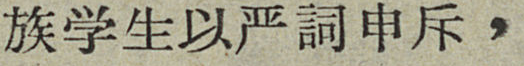族学生以严詞申斥，
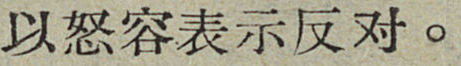以怒容表示反对。
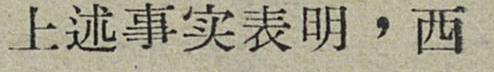上述事实表明，西
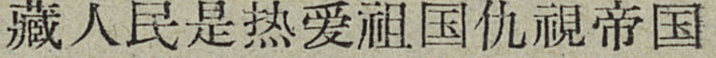藏人民是热爱祖国仇視帝国
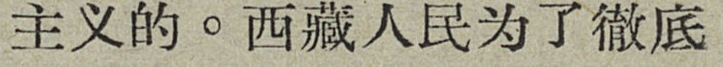主义的。西藏人民为了徹底
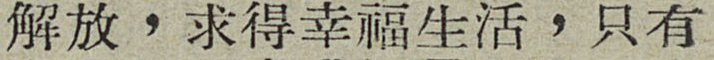解放，求得幸福生活，只有
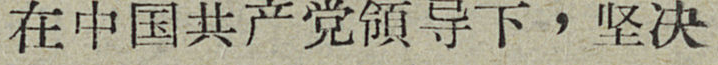在中国共产党領导下，坚决
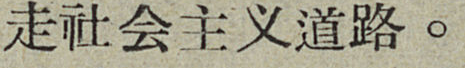走社会主义道路。
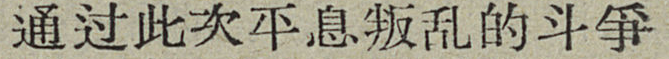通过此次平息叛乱的斗爭
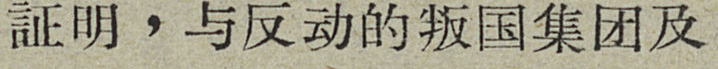証明，与反动的叛国集团及
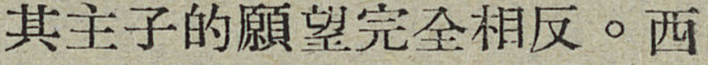其主子的願望完全相反。西
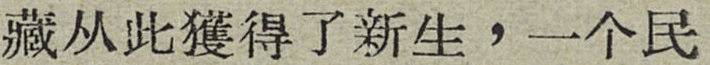藏从此獲得了新生，一个民
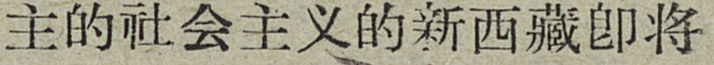主的社会主义的新西藏卽將
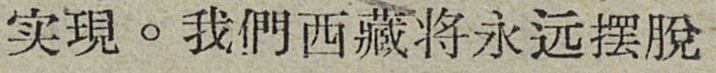实現。我們西藏将永远摆脫
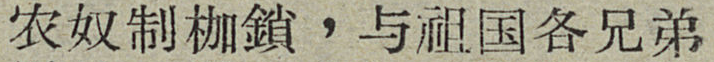农奴制枷鎖，与祖国各兄弟
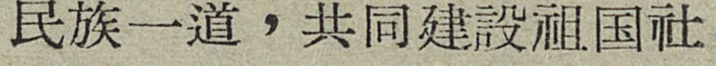民族一道，共同建設祖国社
